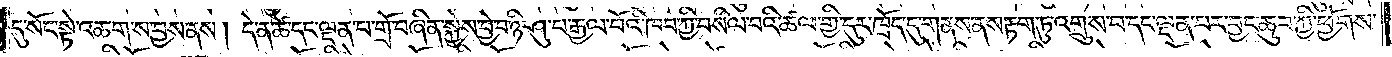དུ་སོང་སྟེ་འཆག་ས་བྱས་ནས། དེ་ན་ཚེ་དང་ལྡན་པ་གྲོ་བཞིན་སྐྱེས་བྱེ་བ་ཉི་ཤུ་པ་རྒྱལ་པོའི་ཁབ་ཀྱི་བསིལ་བའི་ཚལ་གྱི་དུར་ཁྲོད་དུ་གནས་ནས་རྟག་ཏུ་འགྲུས་པ་དང་ལྡན་པར་བྱང་ཆུབ་ཀྱི་ཕྱོགས་
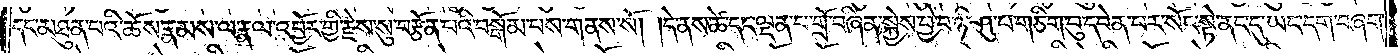དང་མཐུན་པའི་ཆོས་རྣམས་ལ་རྣལ་འབྱོར་གྱི་རྗེས་སུ་བརྩོན་པའི་བསྒོམ་པས་གནས་སོ། །དེ་ནས་ཚེ་དང་ལྡན་པ་གྲོ་བཞིན་སྐྱེས་བྱེ་བ་ཉི་ཤུ་པ་གཅིག་པུ་དབེན་པར་སོང་སྟེ་ནང་དུ་ཡང་དག་བཞག་
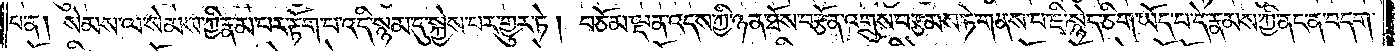པ་ན། སེམས་ལ་སེམས་ཀྱི་རྣམ་པར་རྟོག་པ་འདི་སྙམ་དུ་སྐྱེས་པར་གྱུར་ཏེ། བཅོམ་ལྡན་འདས་ཀྱི་ཉན་ཐོས་བརྩོན་འགྲུས་བརྩམས་ཏེ་གནས་པ་ཇི་སྙེད་ཅིག་ཡོད་པ་དེ་རྣམས་ཀྱི་ནང་ན་བདག་
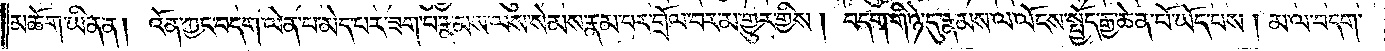མཆོག་ཡིན་ན། འོན་ཀྱང་བདག་ལེན་པ་མེད་པར་ཟག་པ་རྣམས་ལས་སེམས་རྣམ་པར་གྲོལ་བར་མ་གྱུར་གྱིས། བདག་གི་ཉེ་དུ་རྣམས་ལ་ལོངས་སྤྱོད་རྒྱ་ཆེན་པོ་ཡོད་པས། མ་ལ་བདག་
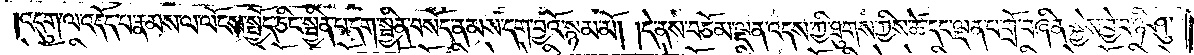འདུག་ལ་འདོད་པ་རྣམས་ལ་ལོངས་སྤྱོད་ཅིང་སྦྱིན་པ་དག་སྦྱིན་བསོད་ནམས་དག་བྱའོ་སྙམ་མོ། །དེ་ནས་བཅོམ་ལྡན་འདས་ཀྱི་ཐུགས་ཀྱིས་ཚེ་དང་ལྡན་པ་གྲོ་བཞིན་སྐྱེས་བྱེ་བ་ཉི་ཤུ་
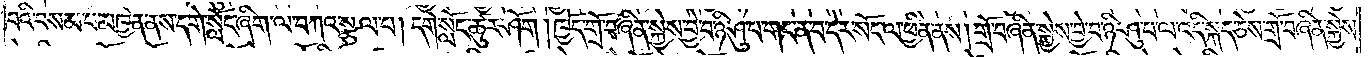བའི་བསམ་པ་མཁྱེན་ནས་དགེ་སློང་ཞིག་ལ་བཀའ་སྩལ་པ། དགེ་སློང་ཚུར་ཤོག །ཁྱོད་གྲོ་བཞིན་སྐྱེས་བྱེ་བ་ཉི་ཤུ་པ་གང་ན་བ་དེར་སོང་ལ་ཕྱིན་ནས། གྲོ་བཞིན་སྐྱེས་བྱེ་བ་ཉི་ཤུ་པ་ལ་འདི་སྐད་ཅེས་གྲོ་བཞིན་སྐྱེས་
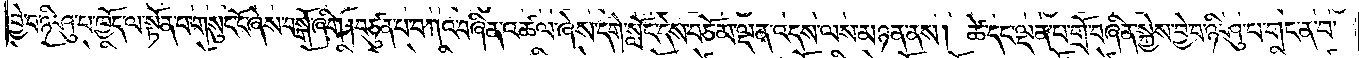བྱེ་བ་ཉི་ཤུ་པ་ཁྱོད་ལ་སྟོན་པ་གསུང་ངོ་ཞེས་བསྒོ་ཞིག །བཙུན་པ་བཀའ་བཞིན་འཚལ་ཞེས་དགེ་སློང་དེས་བཅོམ་ལྡན་འདས་ལས་མཉན་ནས། ཚེ་དང་ལྡན་པ་གྲོ་བཞིན་སྐྱེས་བྱེ་བ་ཉི་ཤུ་པ་གང་ན་བ་
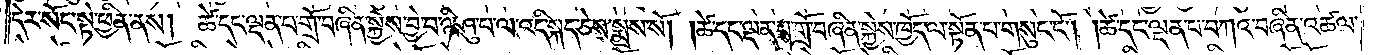དེར་སོང་སྟེ་ཕྱིན་ནས། ཚེ་དང་ལྡན་པ་གྲོ་བཞིན་སྐྱེས་བྱེ་བ་ཉི་ཤུ་པ་ལ་འདི་སྐད་ཅེས་སྨྲས་སོ། །ཚེ་དང་ལྡན་པ་གྲོ་བཞིན་སྐྱེས་ཁྱོད་ལ་སྟོན་པ་གསུང་སོ། །ཚེ་དང་ལྡན་པ་བཀའ་བཞིན་འཚལ་
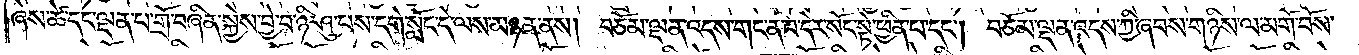ཞེས་ཚེ་དང་ལྡན་པ་གྲོ་བཞིན་སྐྱེས་བྱེ་བ་ཉི་ཤུ་པས་དགེ་སློང་དེ་ལས་མཉན་ནས། བཅོམ་ལྡན་འདས་གང་ན་བ་དེར་སོང་སྟེ་ཕྱིན་པ་དང༌། བཅོམ་ལྡན་འདས་ཀྱི་ཞབས་གཉིས་ལ་མགོ་བོས་
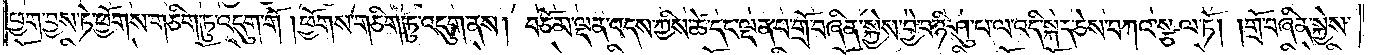ཕྱག་བྱས་ཏེ་ཕྱོགས་གཅིག་ཏུ་འདུག་གོ །ཕྱོགས་གཅིག་ཏུ་འདུག་ནས། བཅོམ་ལྡན་འདས་ཀྱིས་ཚེ་དང་ལྡན་པ་གྲོ་བཞིན་སྐྱེས་བྱེ་བ་ཉི་ཤུ་པ་ལ་འདི་སྐད་ཅེས་བཀའ་སྩལ་ཏོ། །གྲོ་བཞིན་སྐྱེས་
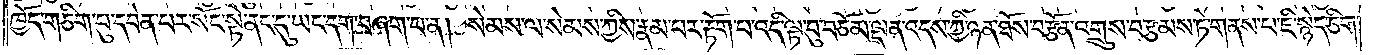ཁྱོད་གཅིག་པུ་དབེན་པར་སོང་སྟེ་ནང་དུ་ཡང་དག་བཞག་པ་ན། སེམས་ལ་སེམས་ཀྱིས་རྣམ་པར་རྟོག་པ་འདི་ལྟ་བུ་བཅོམ་ལྡན་འདས་ཀྱི་ཉན་ཐོས་བརྩོན་འགྲུས་བརྩམས་ཏེ་གནས་པ་ཇི་སྙེད་ཅིག་
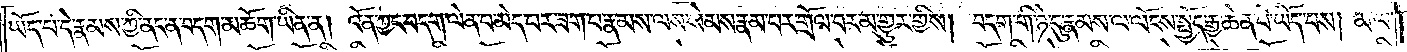ཡོད་པ་དེ་རྣམས་ཀྱི་ནང་ན་བདག་མཆོག་ཡིན་ན། འོན་ཀྱང་བདག་ལེན་པ་མེད་པར་ཟག་པ་རྣམས་ལས་སེམས་རྣམ་པར་གྲོལ་བར་མ་གྱུར་གྱིས། བདག་གི་ཉེ་དུ་རྣམས་ལ་ལོངས་སྤྱོད་རྒྱ་ཆེན་པོ་ཡོད་པས། མ་ལ་
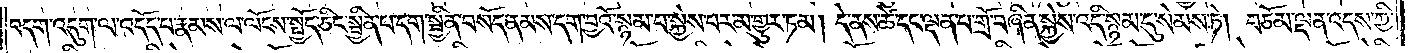བདག་འདུག་ལ་འདོད་པ་རྣམས་ལ་ལོངས་སྤྱོད་ཅིང་སྦྱིན་པ་དག་སྦྱིན་བསོད་ནམས་དག་བྱའོ་སྙམ་པ་སྐྱེས་པར་མ་གྱུར་ཏམ། དེ་ནས་ཚེ་དང་ལྡན་པ་གྲོ་བཞིན་སྐྱེས་འདི་སྙམ་དུ་སེམས་ཏེ། བཅོམ་ལྡན་འདས་ཀྱི་
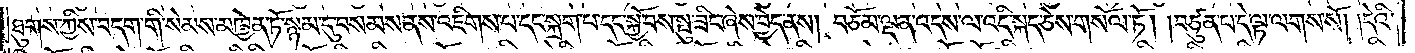ཐུགས་ཀྱིས་བདག་གི་སེམས་མཁྱེན་ཏོ་སྙམ་དུ་བསམས་ནས་འཇིགས་པ་དང་སྐྲག་པ་དང་སྐྱོ་བས་སྤུ་ཟིང་ཞེས་བྱེད་ནས། བཅོམ་ལྡན་འདས་ལ་འདི་སྐད་ཅེས་གསོལ་ཏོ། །བཙུན་པ་དེ་ལྟ་ལགས་སོ། །དེའི་
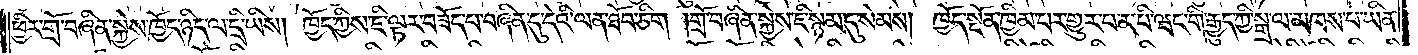ཕྱིར་གྲོ་བཞིན་སྐྱེས་ཁྱོད་ཉིད་ལ་དྲི་ཡིས། ཁྱོད་ཀྱིས་ཇི་ལྟར་བཟོད་པ་བཞིན་དུ་དེའི་ལན་ཐོབ་ཅིག །གྲོ་བཞིན་སྐྱེས་ཇི་སྙམ་དུ་སེམས། ཁྱོད་སྔོན་ཁྱིམ་པར་གྱུར་པ་ན་པི་ཝང་གི་རྒྱུད་ཀྱི་སྒྲ་ལ་མཁས་པ་ཡིན་
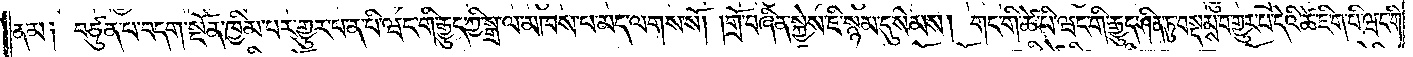ནམ། བཙུན་པ་བདག་སྔོན་ཁྱིམ་པར་གྱུར་པ་ན་པི་ཝང་གི་རྒྱུད་ཀྱི་སྒྲ་ལ་མཁས་པ་མད་ལགས་སོ། །གྲོ་བཞིན་སྐྱེས་ཇི་སྙམ་དུ་སེམས། གང་གི་ཚེ་པི་ཝང་གི་རྒྱུད་ཤིན་ཏུ་བསྡམས་བ་གྱུར་པ་དེའི་ཚེ་ཇི་ག་པི་ཝང་གི་
